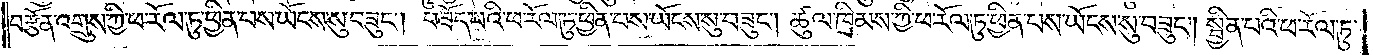བརྩོན་འགྲུས་ཀྱི་ཕ་རོལ་ཏུ་ཕྱིན་པས་ཡོངས་སུ་བཟུང༌། བཟོད་པའི་ཕ་རོལ་ཏུ་ཕྱིན་པས་ཡོངས་སུ་བཟུང༌། ཚུལ་ཁྲིམས་ཀྱི་ཕ་རོལ་ཏུ་ཕྱིན་པས་ཡོངས་སུ་བཟུང༌། སྦྱིན་པའི་ཕ་རོལ་ཏུ་
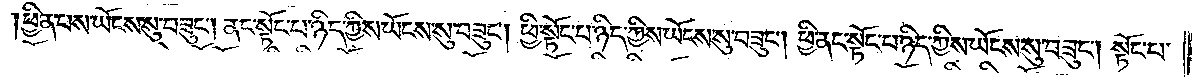ཕྱིན་པས་ཡོངས་སུ་བཟུང༌། ནང་སྟོང་པ་ཉིད་ཀྱིས་ཡོངས་སུ་བཟུང༌། ཕྱི་སྟོང་པ་ཉིད་ཀྱིས་ཡོངས་སུ་བཟུང༌། ཕྱི་ནང་སྟོང་པ་ཉིད་ཀྱིས་ཡོངས་སུ་བཟུང༌། སྟོང་པ་
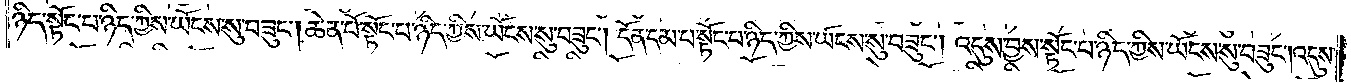ཉིད་སྟོང་པ་ཉིད་ཀྱིས་ཡོངས་སུ་བཟུང༌། ཆེན་པོ་སྟོང་པ་ཉིད་ཀྱིས་ཡོངས་སུ་བཟུང༌། དོན་དམ་པ་སྟོང་པ་ཉིད་ཀྱིས་ཡོངས་སུ་བཟུང༌། འདུས་བྱས་སྟོང་པ་ཉིད་ཀྱིས་ཡོངས་སུ་བཟུང༌། འདུས་
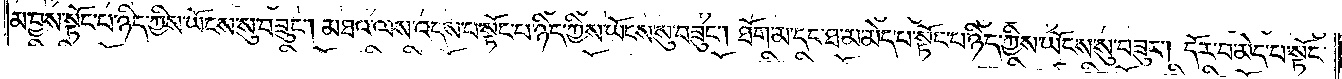མ་བྱས་སྟོང་པ་ཉིད་ཀྱིས་ཡོངས་སུ་བཟུང༌། མཐའ་ལས་འདས་པ་སྟོང་པ་ཉིད་ཀྱིས་ཡོངས་སུ་བཟུང༌། ཐོག་མ་དང་ཐ་མ་མེད་པ་སྟོང་པ་ཉིད་ཀྱིས་ཡོངས་སུ་བཟུང༌། དོར་བ་མེད་པ་སྟོང་
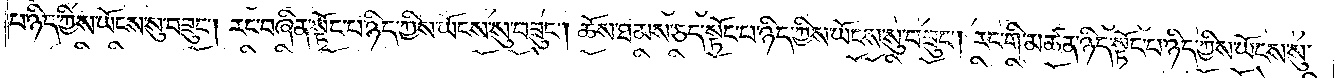པ་ཉིད་ཀྱིས་ཡོངས་སུ་བཟུང༌། རང་བཞིན་སྟོང་པ་ཉིད་ཀྱིས་ཡོངས་སུ་བཟུང༌། ཆོས་ཐམས་ཅད་སྟོང་པ་ཉིད་ཀྱིས་ཡོངས་སུ་བཟུང༌། རང་གི་མཚན་ཉིད་སྟོང་པ་ཉིད་ཀྱིས་ཡོངས་སུ་
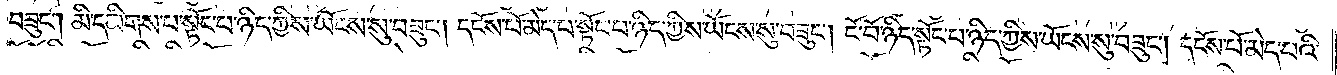བཟུང༌། མི་དམིགས་པ་སྟོང་པ་ཉིད་ཀྱིས་ཡོངས་སུ་བཟུང༌། དངོས་པོ་མེད་པ་སྟོང་པ་ཉིད་ཀྱིས་ཡོངས་སུ་བཟུང༌། ངོ་བོ་ཉིད་སྟོང་པ་ཉིད་ཀྱིས་ཡོངས་སུ་བཟུང༌། དངོས་པོ་མེད་པའི་
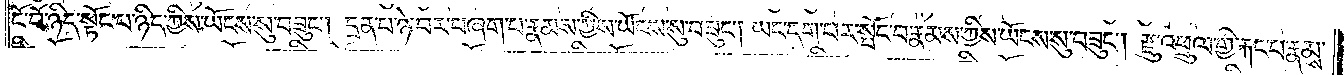ངོ་བོ་ཉིད་སྟོང་པ་ཉིད་ཀྱིས་ཡོངས་སུ་བཟུང༌། དྲན་པ་ཉེ་བར་བཞག་པ་རྣམས་ཀྱིས་ཡོངས་སུ་བཟུང༌། ཡང་དག་པར་སྤོང་བ་རྣམས་ཀྱིས་ཡོངས་སུ་བཟུང༌། རྫུ་འཕྲུལ་གྱི་རྐང་པ་རྣམས་
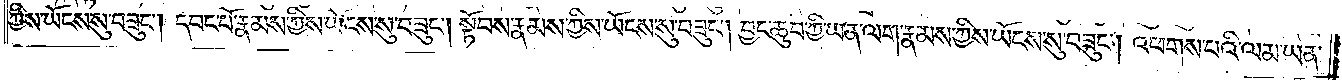ཀྱིས་ཡོངས་སུ་བཟུང༌། དབང་པོ་རྣམས་ཀྱིས་ཡོངས་སུ་བཟུང༌། སྟོབས་རྣམས་ཀྱིས་ཡོངས་སུ་བཟུང༌། བྱང་ཆུབ་ཀྱི་ཡན་ལག་རྣམས་ཀྱིས་ཡོངས་སུ་བཟུང༌། འཕགས་པའི་ལམ་ཡན་
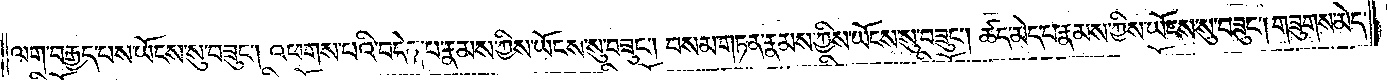ལག་བརྒྱད་པས་ཡོངས་སུ་བཟུང༌། འཕགས་པའི་བདེན་པ་རྣམས་ཀྱིས་ཡོངས་སུ་བཟུང༌། བསམ་གཏན་རྣམས་ཀྱིས་ཡོངས་སུ་བཟུང༌། ཚད་མེད་པ་རྣམས་ཀྱིས་ཡོངས་སུ་བཟུང༌། གཟུགས་མེད་
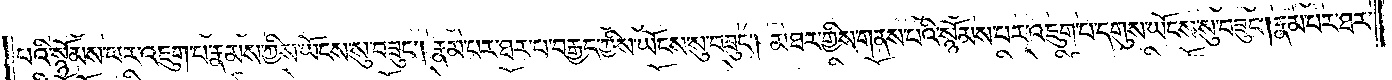པའི་སྙོམས་པར་འཇུག་པ་རྣམས་ཀྱིས་ཡོངས་སུ་བཟུང༌། རྣམ་པར་ཐར་པ་བརྒྱད་ཀྱིས་ཡོངས་སུ་བཟུང༌། མཐར་གྱིས་གནས་པའི་སྙོམས་པར་འཇུག་པ་དགུས་ཡོངས་སུ་བཟུང༌། རྣམ་པར་ཐར་
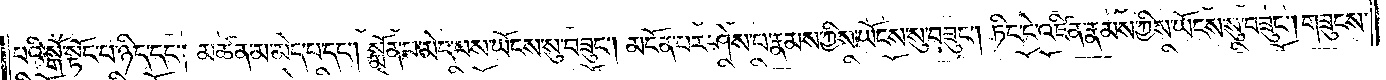པའི་སྒོ་སྟོང་པ་ཉིད་དང༌། མཚན་མ་མེད་པ་དང༌། སྨོན་པ་མེད་པས་ཡོངས་སུ་བཟུང༌། མངོན་པར་ཤེས་པ་རྣམས་ཀྱིས་ཡོངས་སུ་བཟུང༌། ཏིང་ངེ་འཛིན་རྣམས་ཀྱིས་ཡོངས་སུ་བཟུང༌། གཟུངས་
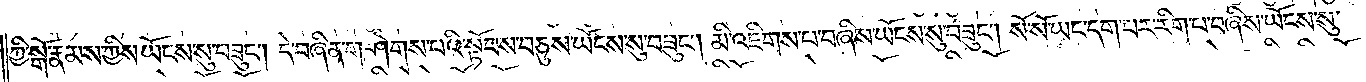ཀྱི་སྒོ་རྣམས་ཀྱིས་ཡོངས་སུ་བཟུང༌། དེ་བཞིན་གཤེགས་པའི་སྟོབས་བཅུས་ཡོངས་སུ་བཟུང༌། མི་འཇིགས་པ་བཞིས་ཡོངས་སུ་བཟུང༌། སོ་སོ་ཡང་དག་པར་རིག་པ་བཞིས་ཡོངས་སུ་
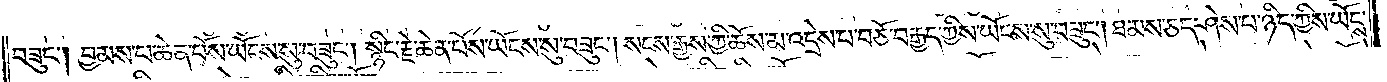བཟུང༌། བྱམས་པ་ཆེན་པོས་ཡོངས་སུ་བཟུང༌། སྙིང་རྗེ་ཆེན་པོས་ཡོངས་སུ་བཟུང༌། སངས་རྒྱས་ཀྱི་ཆོས་མ་འདྲེས་པ་བཅོ་བརྒྱད་ཀྱིས་ཡོངས་སུ་བཟུང༌། ཐམས་ཅད་ཤེས་པ་ཉིད་ཀྱིས་ཡོངས་
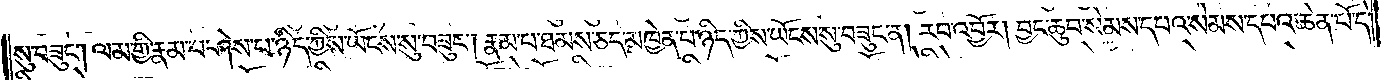སུ་བཟུང༌། ལམ་གྱི་རྣམ་པ་ཤེས་པ་ཉིད་ཀྱིས་ཡོངས་སུ་བཟུང༌། རྣམ་པ་ཐམས་ཅད་མཁྱེན་པ་ཉིད་ཀྱིས་ཡོངས་སུ་བཟུང་ན། རབ་འབྱོར། བྱང་ཆུབ་སེམས་དཔའ་སེམས་དཔའ་ཆེན་པོ་དེ་
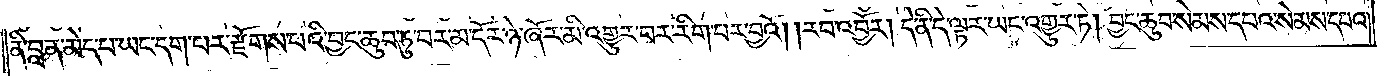ནི་བླ་ན་མེད་པ་ཡང་དག་པར་རྫོགས་པའི་བྱང་ཆུབ་ཏུ་བར་མ་དོར་ཉེ་ཞོར་མི་འགྱུར་བར་རིག་པར་བྱའོ། །རབ་འབྱོར། དེ་ནི་དེ་ལྟར་ཡང་འགྱུར་ཏེ། བྱང་ཆུབ་སེམས་དཔའ་སེམས་དཔའ་
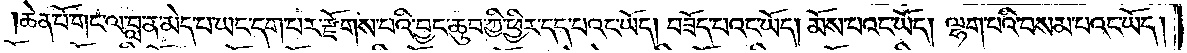ཆེན་པོ་གང་ལ་བླ་ན་མེད་པ་ཡང་དག་པར་རྫོགས་པའི་བྱང་ཆུབ་ཀྱི་ཕྱིར་དད་པའང་ཡོད། བཟོད་པའང་ཡོད། མོས་པའང་ཡོད། ལྷག་པའི་བསམ་པའང་ཡོད།
